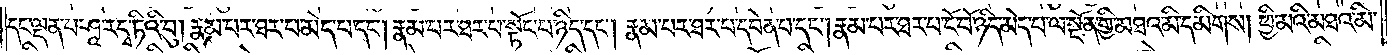དང་ལྡན་པ་ཤཱ་རདྭ་ཏིའི་བུ། རྣམ་པར་ཐར་པ་མེད་པ་དང༌། རྣམ་པར་ཐར་པ་སྟོང་པ་ཉིད་དང༌། རྣམ་པར་ཐར་པ་དབེན་པ་དང༌། རྣམ་པར་ཐར་པ་ངོ་བོ་ཉིད་མེད་པ་ལ་སྔོན་གྱི་མཐའ་མི་དམིགས། ཕྱི་མའི་མཐའ་མི་
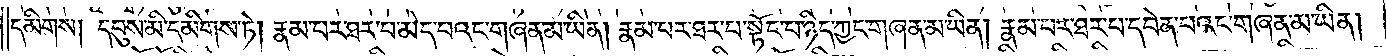དམིགས། དབུས་མི་དམིགས་ཏེ། རྣམ་པར་ཐར་པ་མེད་པའང་གཞན་མ་ཡིན། རྣམ་པར་ཐར་པ་སྟོང་པ་ཉིད་ཀྱང་གཞན་མ་ཡིན། རྣམ་པར་ཐར་པ་དབེན་པའང་གཞན་མ་ཡིན།
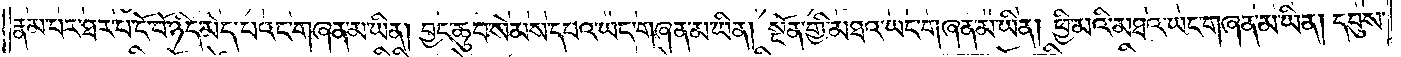རྣམ་པར་ཐར་པ་ངོ་བོ་ཉིད་མེད་པའང་གཞན་མ་ཡིན། བྱང་ཆུབ་སེམས་དཔའ་ཡང་གཞན་མ་ཡིན། སྔོན་གྱི་མཐའ་ཡང་གཞན་མ་ཡིན། ཕྱི་མའི་མཐའ་ཡང་གཞན་མ་ཡིན། དབུས་
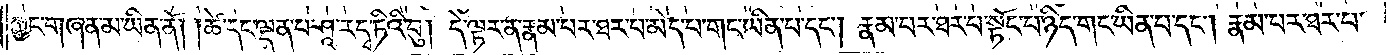ཀྱང་གཞན་མ་ཡིན་ནོ། །ཚེ་དང་ལྡན་པ་ཤཱ་རདྭ་ཏིའི་བུ། དེ་ལྟར་ན་རྣམ་པར་ཐར་པ་མེད་པ་གང་ཡིན་པ་དང༌། རྣམ་པར་ཐར་པ་སྟོང་པ་ཉིད་གང་ཡིན་པ་དང༌། རྣམ་པར་ཐར་པ་
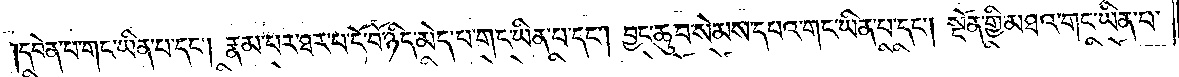དབེན་པ་གང་ཡིན་པ་དང༌། རྣམ་པར་ཐར་པ་ངོ་བོ་ཉིད་མེད་པ་གང་ཡིན་པ་དང༌། བྱང་ཆུབ་སེམས་དཔའ་གང་ཡིན་པ་དང༌། སྔོན་གྱི་མཐའ་གང་ཡིན་པ་
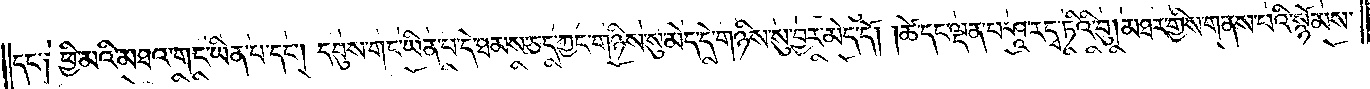དང་༑ ཕྱི་མའི་མཐའ་གང་ཡིན་པ་དང༌། དབུས་གང་ཡིན་པ་དེ་ཐམས་ཅད་ཀྱང་གཉིས་སུ་མེད་དེ་གཉིས་སུ་བྱར་མེད་དོ། །ཚེ་དང་ལྡན་པ་ཤཱ་རདྭ་ཏིའི་བུ། མཐར་གྱིས་གནས་པའི་སྙོམས་
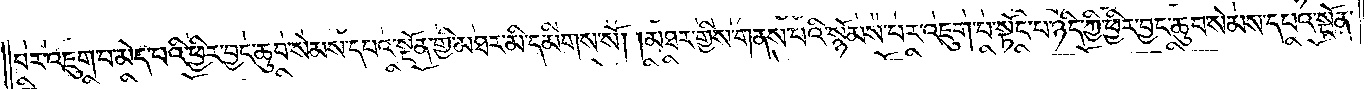པར་འཇུག་པ་མེད་པའི་ཕྱིར་བྱང་ཆུབ་སེམས་དཔའ་སྔོན་གྱི་མཐར་མི་དམིགས་སོ། །མཐར་གྱིས་གནས་པའི་སྙོམས་པར་འཇུག་པ་སྟོང་པ་ཉིད་ཀྱི་ཕྱིར་བྱང་ཆུབ་སེམས་དཔའ་སྔོན་
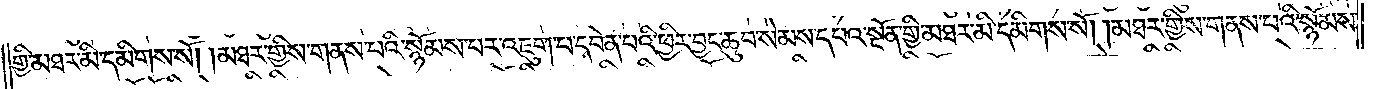གྱི་མཐར་མི་དམིགས་སོ། །མཐར་གྱིས་གནས་པའི་སྙོམས་པར་འཇུག་པ་དབེན་པའི་ཕྱིར་བྱང་ཆུབ་སེམས་དཔའ་སྔོན་གྱི་མཐར་མི་དམིགས་སོ། །མཐར་གྱིས་གནས་པའི་སྙོམས་
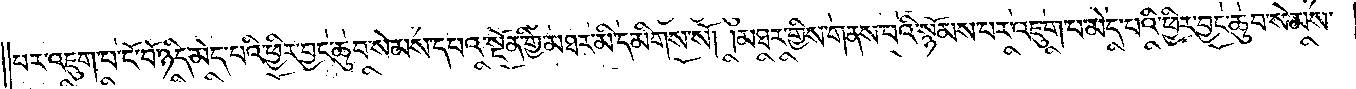པར་འཇུག་པ་ངོ་བོ་ཉིད་མེད་པའི་ཕྱིར་བྱང་ཆུབ་སེམས་དཔའ་སྔོན་གྱི་མཐར་མི་དམིགས་སོ། །མཐར་གྱིས་གནས་པའི་སྙོམས་པར་འཇུག་པ་མེད་པའི་ཕྱིར་བྱང་ཆུབ་སེམས་
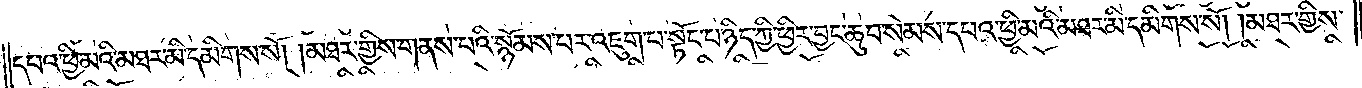དཔའ་ཕྱི་མའི་མཐར་མི་དམིགས་སོ། །མཐར་གྱིས་གནས་པའི་སྙོམས་པར་འཇུག་པ་སྟོང་པ་ཉིད་ཀྱི་ཕྱིར་བྱང་ཆུབ་སེམས་དཔའ་ཕྱི་མའི་མཐར་མི་དམིགས་སོ། །མཐར་གྱིས་
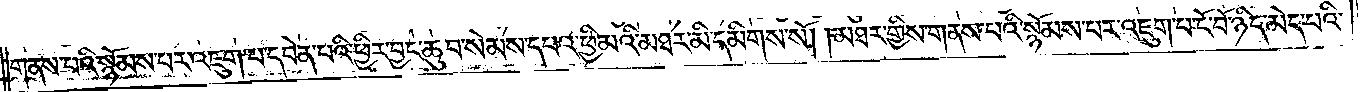གནས་པའི་སྙོམས་པར་འཇུག་པ་དབེན་པའི་ཕྱིར་བྱང་ཆུབ་སེམས་དཔའ་ཕྱི་མའི་མཐར་མི་དམིགས་སོ། །མཐར་གྱིས་གནས་པའི་སྙོམས་པར་འཇུག་པ་ངོ་བོ་ཉིད་མེད་པའི་
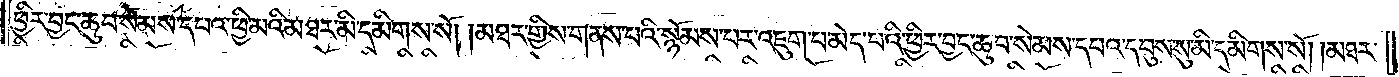ཕྱིར་བྱང་ཆུབ་སེམས་དཔའ་ཕྱི་མའི་མཐར་མི་དམིགས་སོ། །མཐར་གྱིས་གནས་པའི་སྙོམས་པར་འཇུག་པ་མེད་པའི་ཕྱིར་བྱང་ཆུབ་སེམས་དཔའ་དབུས་སུ་མི་དམིགས་སོ། །མཐར་
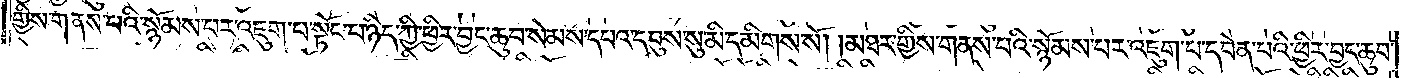གྱིས་གནས་པའི་སྙོམས་པར་འཇུག་པ་སྟོང་པ་ཉིད་ཀྱི་ཕྱིར་བྱང་ཆུབ་སེམས་དཔའ་དབུས་སུ་མི་དམིགས་སོ། །མཐར་གྱིས་གནས་པའི་སྙོམས་པར་འཇུག་པ་དབེན་པའི་ཕྱིར་བྱང་ཆུབ་
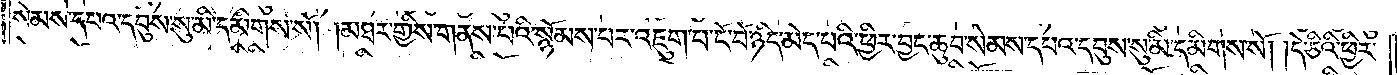སེམས་དཔའ་དབུས་སུ་མི་དམིགས་སོ། །མཐར་གྱིས་གནས་པའི་སྙོམས་པར་འཇུག་པ་ངོ་བོ་ཉིད་མེད་པའི་ཕྱིར་བྱང་ཆུབ་སེམས་དཔའ་དབུས་སུ་མི་དམིགས་སོ། །དེ་ཅིའི་ཕྱིར་
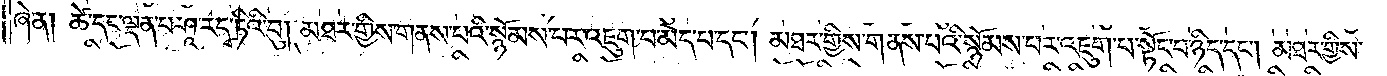ཞེ་ན། ཚེ་དང་ལྡན་པ་ཤཱ་རདྭ་ཏིའི་བུ། མཐར་གྱིས་གནས་པའི་སྙོམས་པར་འཇུག་པ་མེད་པ་དང༌། མཐར་གྱིས་གནས་པའི་སྙོམས་པར་འཇུག་པ་སྟོང་པ་ཉིད་དང༌། མཐར་གྱིས་
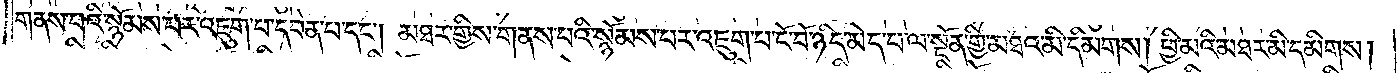གནས་པའི་སྙོམས་པར་འཇུག་པ་དབེན་པ་དང༌། མཐར་གྱིས་གནས་པའི་སྙོམས་པར་འཇུག་པ་ངོ་བོ་ཉིད་མེད་པ་ལ་སྔོན་གྱི་མཐའ་མི་དམིགས། ཕྱི་མའི་མཐའ་མི་དམིགས།
